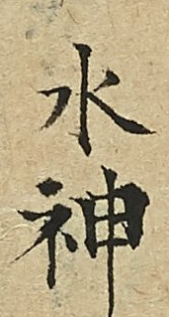水神
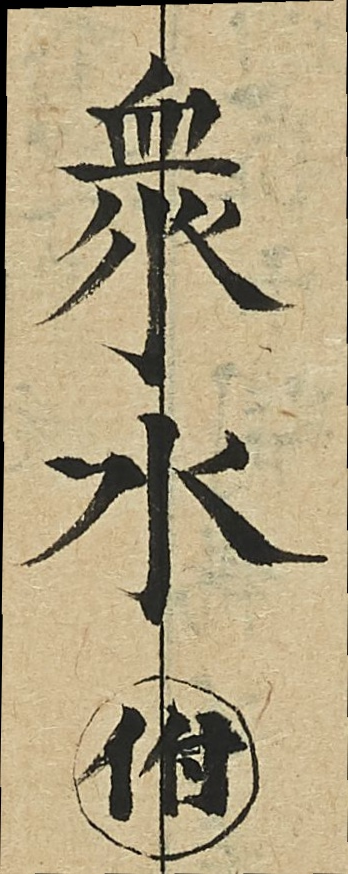衆水附
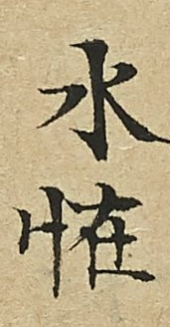水惟
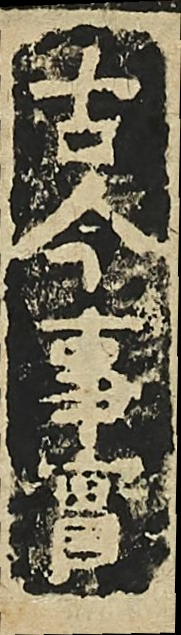古今事實
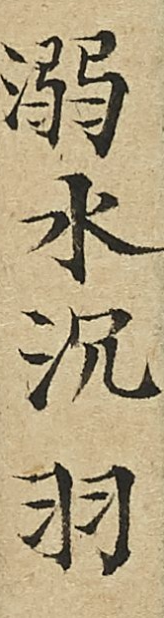溺水沉羽
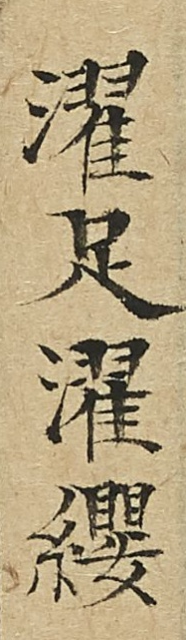濯足濯纓
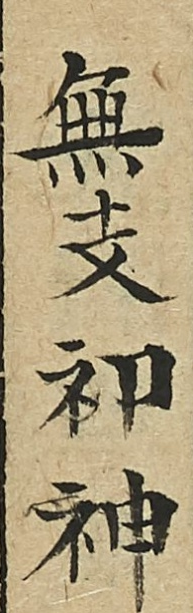無支初神
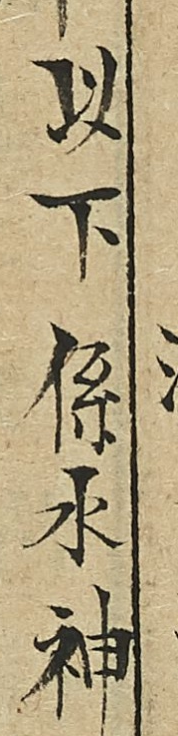以下係水神
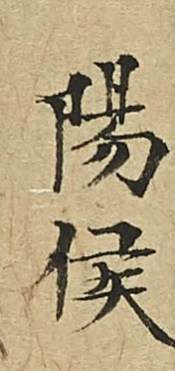陽侯
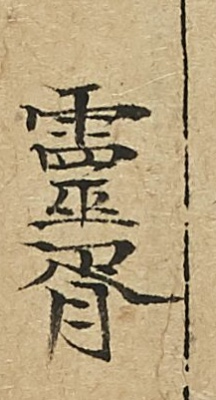靈夷
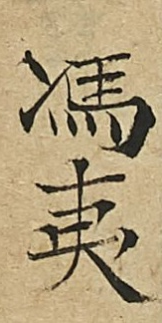馮夷
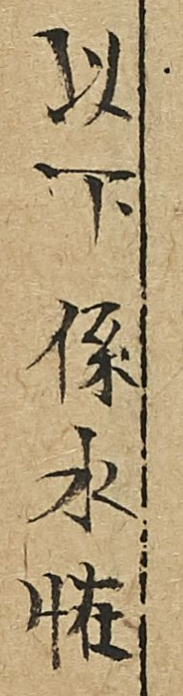以下係水恠
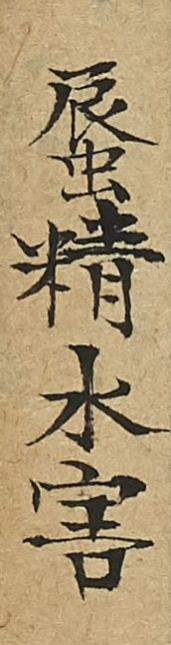蜃精水害
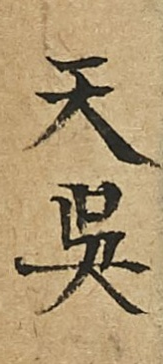天吳
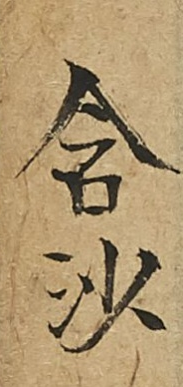含沙
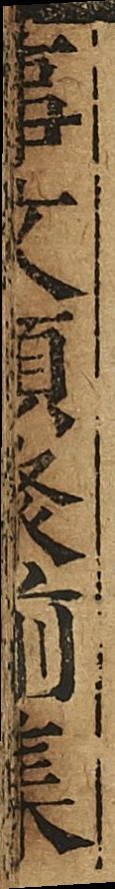事文類聚前集
